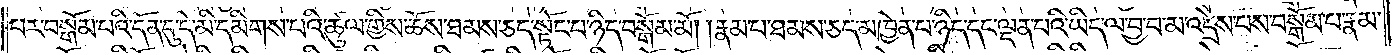པར་བསྒོམ་པའི་དོན་དུ་དེ་མི་དམིགས་པའི་ཚུལ་གྱིས་ཆོས་ཐམས་ཅད་སྟོང་པ་ཉིད་བསྒོམ་མོ། །རྣམ་པ་ཐམས་ཅད་མཁྱེན་པ་ཉིད་དང་ལྡན་པའི་ཡིད་ལ་བྱ་བ་མ་འདྲེས་པས་བསྒོམ་པ་རྣམ་
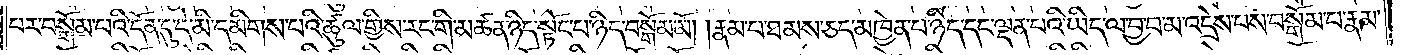པར་བསྒོམ་པའི་དོན་དུ་དེ་མི་དམིགས་པའི་ཚུལ་གྱིས་རང་གི་མཚན་ཉིད་སྟོང་པ་ཉིད་བསྒོམ་མོ། །རྣམ་པ་ཐམས་ཅད་མཁྱེན་པ་ཉིད་དང་ལྡན་པའི་ཡིད་ལ་བྱ་བ་མ་འདྲེས་པས་བསྒོམ་པ་རྣམ་
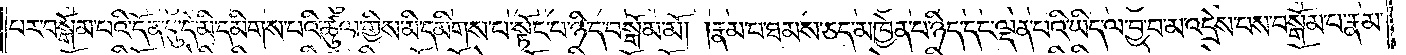པར་བསྒོམ་པའི་དོན་དུ་དེ་མི་དམིགས་པའི་ཚུལ་གྱིས་མི་དམིགས་པ་སྟོང་པ་ཉིད་བསྒོམ་མོ། །རྣམ་པ་ཐམས་ཅད་མཁྱེན་པ་ཉིད་དང་ལྡན་པའི་ཡིད་ལ་བྱ་བ་མ་འདྲེས་པས་བསྒོམ་པ་རྣམ་
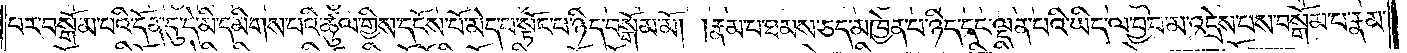པར་བསྒོམ་པའི་དོན་དུ་དེ་མི་དམིགས་པའི་ཚུལ་གྱིས་དངོས་པོ་མེད་པ་སྟོང་པ་ཉིད་བསྒོམ་མོ། །རྣམ་པ་ཐམས་ཅད་མཁྱེན་པ་ཉིད་དང་ལྡན་པའི་ཡིད་ལ་བྱ་བ་མ་འདྲེས་པས་བསྒོམ་པ་རྣམ་
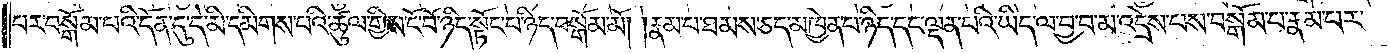པར་བསྒོམ་པའི་དོན་དུ་དེ་མི་དམིགས་པའི་ཚུལ་གྱིས་ངོ་བོ་ཉིད་སྟོང་པ་ཉིད་བསྒོམ་མོ། །རྣམ་པ་ཐམས་ཅད་མཁྱེན་པ་ཉིད་དང་ལྡན་པའི་ཡིད་ལ་བྱ་བ་མ་འདྲེས་པས་བསྒོམ་པ་རྣམ་པར་
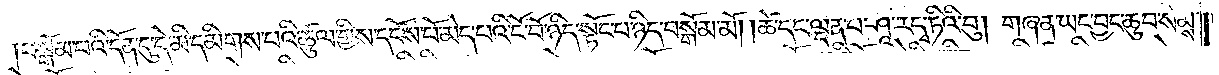བསྒོམ་པའི་དོན་དུ་དེ་མི་དམིགས་པའི་ཚུལ་གྱིས་དངོས་པོ་མེད་པའི་ངོ་བོ་ཉིད་སྟོང་པ་ཉིད་བསྒོམ་མོ། །ཚེ་དང་ལྡན་པ་ཤཱ་རདྭ་ཏིའི་བུ། གཞན་ཡང་བྱང་ཆུབ་སེམས་
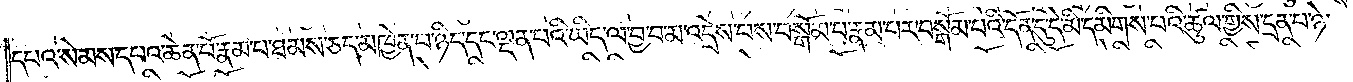དཔའ་སེམས་དཔའ་ཆེན་པོ་རྣམ་པ་ཐམས་ཅད་མཁྱེན་པ་ཉིད་དང་ལྡན་པའི་ཡིད་ལ་བྱ་བ་མ་འདྲེས་པས་བསྒོམ་པ་རྣམ་པར་བསྒོམ་པའི་དོན་དུ་དེ་མི་དམིགས་པའི་ཚུལ་གྱིས་དྲན་པ་ཉེ་
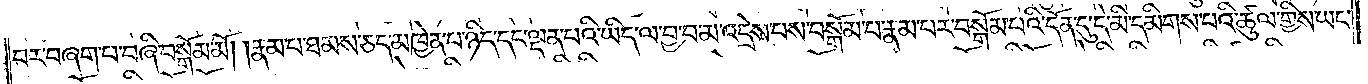བར་བཞག་པ་བཞི་བསྒོམ་མོ། །རྣམ་པ་ཐམས་ཅད་མཁྱེན་པ་ཉིད་དང་ལྡན་པའི་ཡིད་ལ་བྱ་བ་མ་འདྲེས་པས་བསྒོམ་པ་རྣམ་པར་བསྒོམ་པའི་དོན་དུ་དེ་མི་དམིགས་པའི་ཚུལ་གྱིས་ཡང་
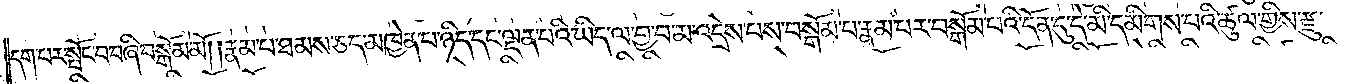དག་པར་སྤོང་བ་བཞི་བསྒོམ་མོ། །རྣམ་པ་ཐམས་ཅད་མཁྱེན་པ་ཉིད་དང་ལྡན་པའི་ཡིད་ལ་བྱ་བ་མ་འདྲེས་པས་བསྒོམ་པ་རྣམ་པར་བསྒོམ་པའི་དོན་དུ་དེ་མི་དམིགས་པའི་ཚུལ་གྱིས་རྫུ་
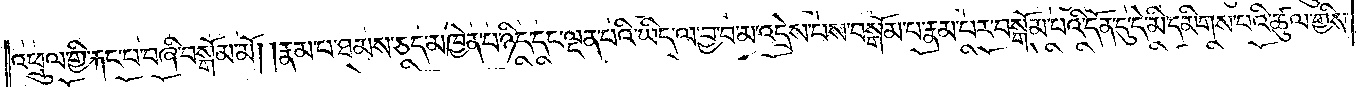འཕྲུལ་གྱི་རྐང་པ་བཞི་བསྒོམ་མོ། །རྣམ་པ་ཐམས་ཅད་མཁྱེན་པ་ཉིད་དང་ལྡན་པའི་ཡིད་ལ་བྱ་བ་མ་འདྲེས་པས་བསྒོམ་པ་རྣམ་པར་བསྒོམ་པའི་དོན་དུ་དེ་མི་དམིགས་པའི་ཚུལ་གྱིས་
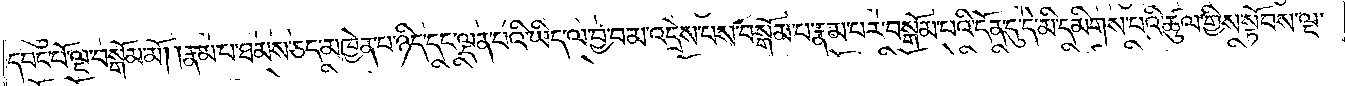དབང་པོ་ལྔ་བསྒོམ་མོ། །རྣམ་པ་ཐམས་ཅད་མཁྱེན་པ་ཉིད་དང་ལྡན་པའི་ཡིད་ལ་བྱ་བ་མ་འདྲེས་པས་བསྒོམ་པ་རྣམ་པར་བསྒོམ་པའི་དོན་དུ་དེ་མི་དམིགས་པའི་ཚུལ་གྱིས་སྟོབས་ལྔ་
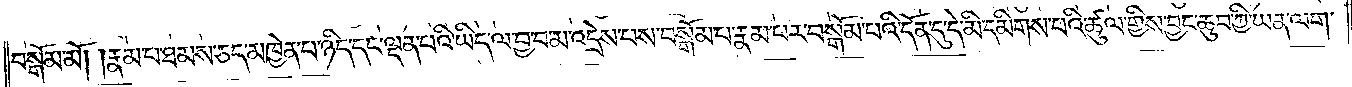བསྒོམ་མོ། །རྣམ་པ་ཐམས་ཅད་མཁྱེན་པ་ཉིད་དང་ལྡན་པའི་ཡིད་ལ་བྱ་བ་མ་འདྲེས་པས་བསྒོམ་པ་རྣམ་པར་བསྒོམ་པའི་དོན་དུ་དེ་མི་དམིགས་པའི་ཚུལ་གྱིས་བྱང་ཆུབ་ཀྱི་ཡན་ལག་
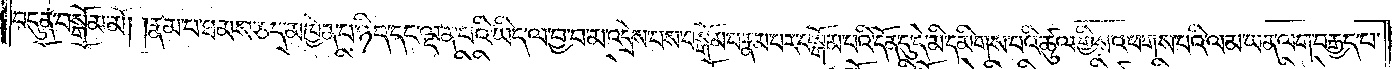བདུན་བསྒོམ་མོ། །རྣམ་པ་ཐམས་ཅད་མཁྱེན་པ་ཉིད་དང་ལྡན་པའི་ཡིད་ལ་བྱ་བ་མ་འདྲེས་པས་བསྒོམ་པ་རྣམ་པར་བསྒོམ་པའི་དོན་དུ་དེ་མི་དམིགས་པའི་ཚུལ་གྱིས་འཕགས་པའི་ལམ་ཡན་ལག་བརྒྱད་པ་
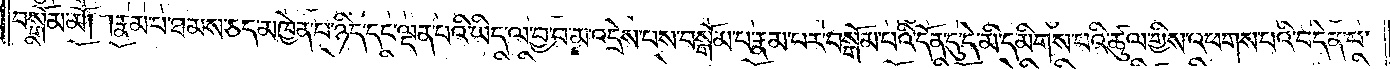བསྒོམ་མོ། །རྣམ་པ་ཐམས་ཅད་མཁྱེན་པ་ཉིད་དང་ལྡན་པའི་ཡིད་ལ་བྱ་བ་མ་འདྲེས་པས་བསྒོམ་པ་རྣམ་པར་བསྒོམ་པའི་དོན་དུ་དེ་མི་དམིགས་པའི་ཚུལ་གྱིས་འཕགས་པའི་བདེན་པ་
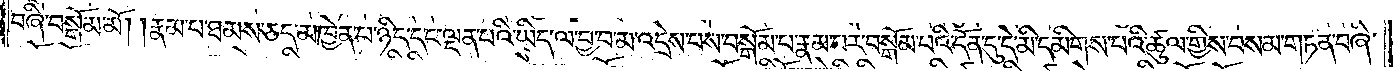བཞི་བསྒོམ་མོ། །རྣམ་པ་ཐམས་ཅད་མཁྱེན་པ་ཉིད་དང་ལྡན་པའི་ཡིད་ལ་བྱ་བ་མ་འདྲེས་པས་བསྒོམ་པ་རྣམ་པར་བསྒོམ་པའི་དོན་དུ་དེ་མི་དམིགས་པའི་ཚུལ་གྱིས་བསམ་གཏན་བཞི་
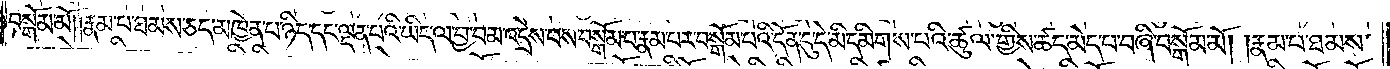བསྒོམ་མོ། །རྣམ་པ་ཐམས་ཅད་མཁྱེན་པ་ཉིད་དང་ལྡན་པའི་ཡིད་ལ་བྱ་བ་མ་འདྲེས་པས་བསྒོམ་པ་རྣམ་པར་བསྒོམ་པའི་དོན་དུ་དེ་མི་དམིགས་པའི་ཚུལ་གྱིས་ཚད་མེད་པ་བཞི་བསྒོམ་མོ། །རྣམ་པ་ཐམས་
